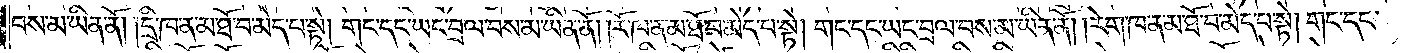བས་མ་ཡིན་ནོ། །དྲི་ཁ་ན་མ་ཐོ་བ་མེད་པ་སྟེ། གང་དང་ཡང་བྲལ་བས་མ་ཡིན་ནོ། །རོ་ཁ་ན་མ་ཐོ་བ་མེད་པ་སྟེ། གང་དང་ཡང་བྲལ་བས་མ་ཡིན་ནོ། །རེག་ཁ་ན་མ་ཐོ་བ་མེད་པ་སྟེ། གང་དང་
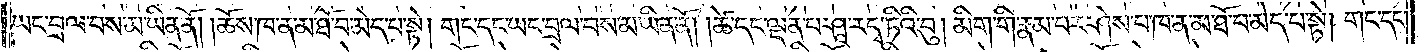ཡང་བྲལ་བས་མ་ཡིན་ནོ། །ཆོས་ཁ་ན་མ་ཐོ་བ་མེད་པ་སྟེ། གང་དང་ཡང་བྲལ་བས་མ་ཡིན་ནོ། །ཚེ་དང་ལྡན་པ་ཤཱ་ར་དྭ་ཏིའི་བུ། མིག་གི་རྣམ་པར་ཤེས་པ་ཁ་ན་མ་ཐོ་བ་མེད་པ་སྟེ། གང་དང་
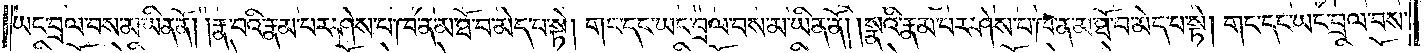ཡང་བྲལ་བས་མ་ཡིན་ནོ། །རྣ་བའི་རྣམ་པར་ཤེས་པ་ཁ་ན་མ་ཐོ་བ་མེད་པ་སྟེ། གང་དང་ཡང་བྲལ་བས་མ་ཡིན་ནོ། །སྣའི་རྣམ་པར་ཤེས་པ་ཁ་ན་མ་ཐོ་བ་མེད་པ་སྟེ། གང་དང་ཡང་བྲལ་བས་
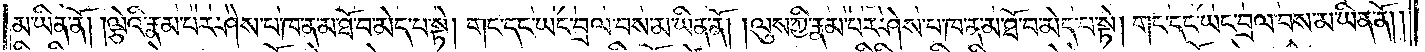མ་ཡིན་ནོ། །ལྕེའི་རྣམ་པར་ཤེས་པ་ཁ་ན་མ་ཐོ་བ་མེད་པ་སྟེ། གང་དང་ཡང་བྲལ་བས་མ་ཡིན་ནོ། །ལུས་ཀྱི་རྣམ་པར་ཤེས་པ་ཁ་ན་མ་ཐོ་བ་མེད་པ་སྟེ། གང་དང་ཡང་བྲལ་བས་མ་ཡིན་ནོ། །
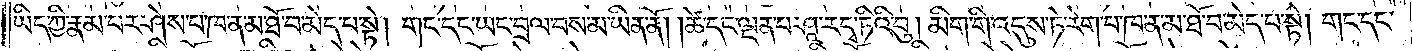ཡིད་ཀྱི་རྣམ་པར་ཤེས་པ་ཁ་ན་མ་ཐོ་བ་མེད་པ་སྟེ། གང་དང་ཡང་བྲལ་བས་མ་ཡིན་ནོ། །ཚེ་དང་ལྡན་པ་ཤཱ་ར་དྭ་ཏིའི་བུ། མིག་གི་འདུས་ཏེ་རེག་པ་ཁ་ན་མ་ཐོ་བ་མེད་པ་སྟེ། གང་དང་
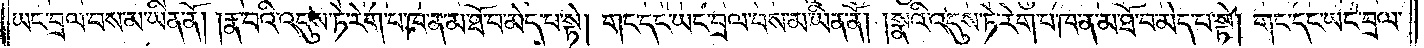ཡང་བྲལ་བས་མ་ཡིན་ནོ། །རྣ་བའི་འདུས་ཏེ་རེག་པ་ཁ་ན་མ་ཐོ་བ་མེད་པ་སྟེ། གང་དང་ཡང་བྲལ་བས་མ་ཡིན་ནོ། །སྣའི་འདུས་ཏེ་རེག་པ་ཁ་ན་མ་ཐོ་བ་མེད་པ་སྟེ། གང་དང་ཡང་བྲལ་
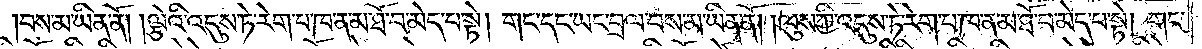བས་མ་ཡིན་ནོ། །ལྕེའི་འདུས་ཏེ་རེག་པ་ཁ་ན་མ་ཐོ་བ་མེད་པ་སྟེ། གང་དང་ཡང་བྲལ་བས་མ་ཡིན་ནོ། །ལུས་ཀྱི་འདུས་ཏེ་རེག་པ་ཁ་ན་མ་ཐོ་བ་མེད་པ་སྟེ། གང་
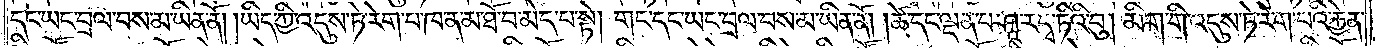དང་ཡང་བྲལ་བས་མ་ཡིན་ནོ། །ཡིད་ཀྱི་འདུས་ཏེ་རེག་པ་ཁ་ན་མ་ཐོ་བ་མེད་པ་སྟེ། གང་དང་ཡང་བྲལ་བས་མ་ཡིན་ནོ། །ཚེ་དང་ལྡན་པ་ཤཱ་ར་དྭ་ཏིའི་བུ། མིག་གི་འདུས་ཏེ་རེག་པའི་རྐྱེན་
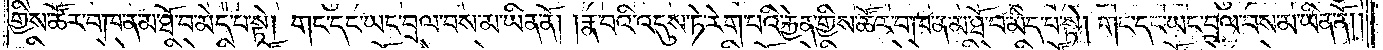གྱིས་ཚོར་བ་ཁ་ན་མ་ཐོ་བ་མེད་པ་སྟེ། གང་དང་ཡང་བྲལ་བས་མ་ཡིན་ནོ། །རྣ་བའི་འདུས་ཏེ་རེག་པའི་རྐྱེན་གྱིས་ཚོར་བ་ཁ་ན་མ་ཐོ་བ་མེད་པ་སྟེ། གང་དང་ཡང་བྲལ་བས་མ་ཡིན་ནོ། །
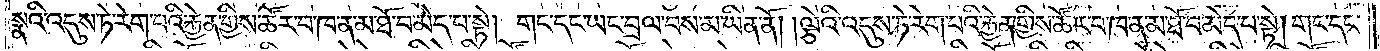སྣའི་འདུས་ཏེ་རེག་པའི་རྐྱེན་གྱིས་ཚོར་བ་ཁ་ན་མ་ཐོ་བ་མེད་པ་སྟེ། གང་དང་ཡང་བྲལ་བས་མ་ཡིན་ནོ། །ལྕེའི་འདུས་ཏེ་རེག་པའི་རྐྱེན་གྱིས་ཚོར་བ་ཁ་ན་མ་ཐོ་བ་མེད་པ་སྟེ། གང་དང་
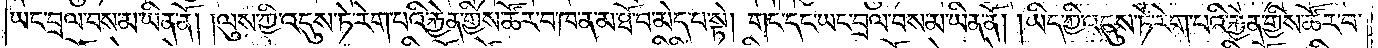ཡང་བྲལ་བས་མ་ཡིན་ནོ། །ལུས་ཀྱི་འདུས་ཏེ་རེག་པའི་རྐྱེན་གྱིས་ཚོར་བ་ཁ་ན་མ་ཐོ་བ་མེད་པ་སྟེ། གང་དང་ཡང་བྲལ་བས་མ་ཡིན་ནོ། །ཡིད་ཀྱི་འདུས་ཏེ་རེག་པའི་རྐྱེན་གྱིས་ཚོར་བ་
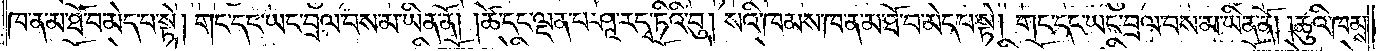ཁ་ན་མ་ཐོ་བ་མེད་པ་སྟེ། གང་དང་ཡང་བྲལ་བས་མ་ཡིན་ནོ། །ཚེ་དང་ལྡན་པ་ཤཱ་ར་དྭ་ཏིའི་བུ། སའི་ཁམས་ཁ་ན་མ་ཐོ་བ་མེད་པ་སྟེ། གང་དང་ཡང་བྲལ་བས་མ་ཡིན་ནོ། །ཆུའི་ཁམས་
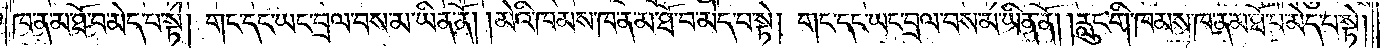ཁ་ན་མ་ཐོ་བ་མེད་པ་སྟེ། གང་དང་ཡང་བྲལ་བས་མ་ཡིན་ནོ། །མེའི་ཁམས་ཁ་ན་མ་ཐོ་བ་མེད་པ་སྟེ། གང་དང་ཡང་བྲལ་བས་མ་ཡིན་ནོ། །རླུང་གི་ཁམས་ཁ་ན་མ་ཐོ་བ་མེད་པ་སྟེ།
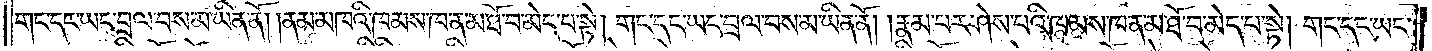གང་དང་ཡང་བྲལ་བས་མ་ཡིན་ནོ། །ནམ་མཁའི་ཁམས་ཁ་ན་མ་ཐོ་བ་མེད་པ་སྟེ། གང་དང་ཡང་བྲལ་བས་མ་ཡིན་ནོ། །རྣམ་པར་ཤེས་པའི་ཁམས་ཁ་ན་མ་ཐོ་བ་མེད་པ་སྟེ། གང་དང་ཡང་
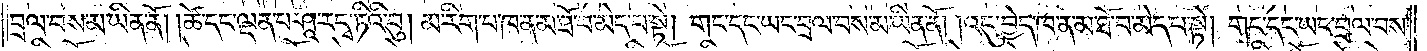བྲལ་བས་མ་ཡིན་ནོ། །ཚེ་དང་ལྡན་པ་ཤཱ་ར་དྭ་ཏིའི་བུ། མ་རིག་པ་ཁ་ན་མ་ཐོ་བ་མེད་པ་སྟེ། གང་དང་ཡང་བྲལ་བས་མ་ཡིན་ནོ། །འདུ་བྱེད་ཁ་ན་མ་ཐོ་བ་མེད་པ་སྟེ། གང་དང་ཡང་བྲལ་བས་
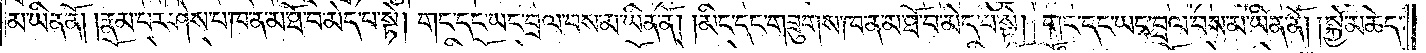མ་ཡིན་ནོ། །རྣམ་པར་ཤེས་པ་ཁ་ན་མ་ཐོ་བ་མེད་པ་སྟེ། གང་དང་ཡང་བྲལ་བས་མ་ཡིན་ནོ། །མིང་དང་གཟུགས་ཁ་ན་མ་ཐོ་བ་མེད་པ་སྟེ། གང་དང་ཡང་བྲལ་བས་མ་ཡིན་ནོ། །སྐྱེ་མཆེད་
